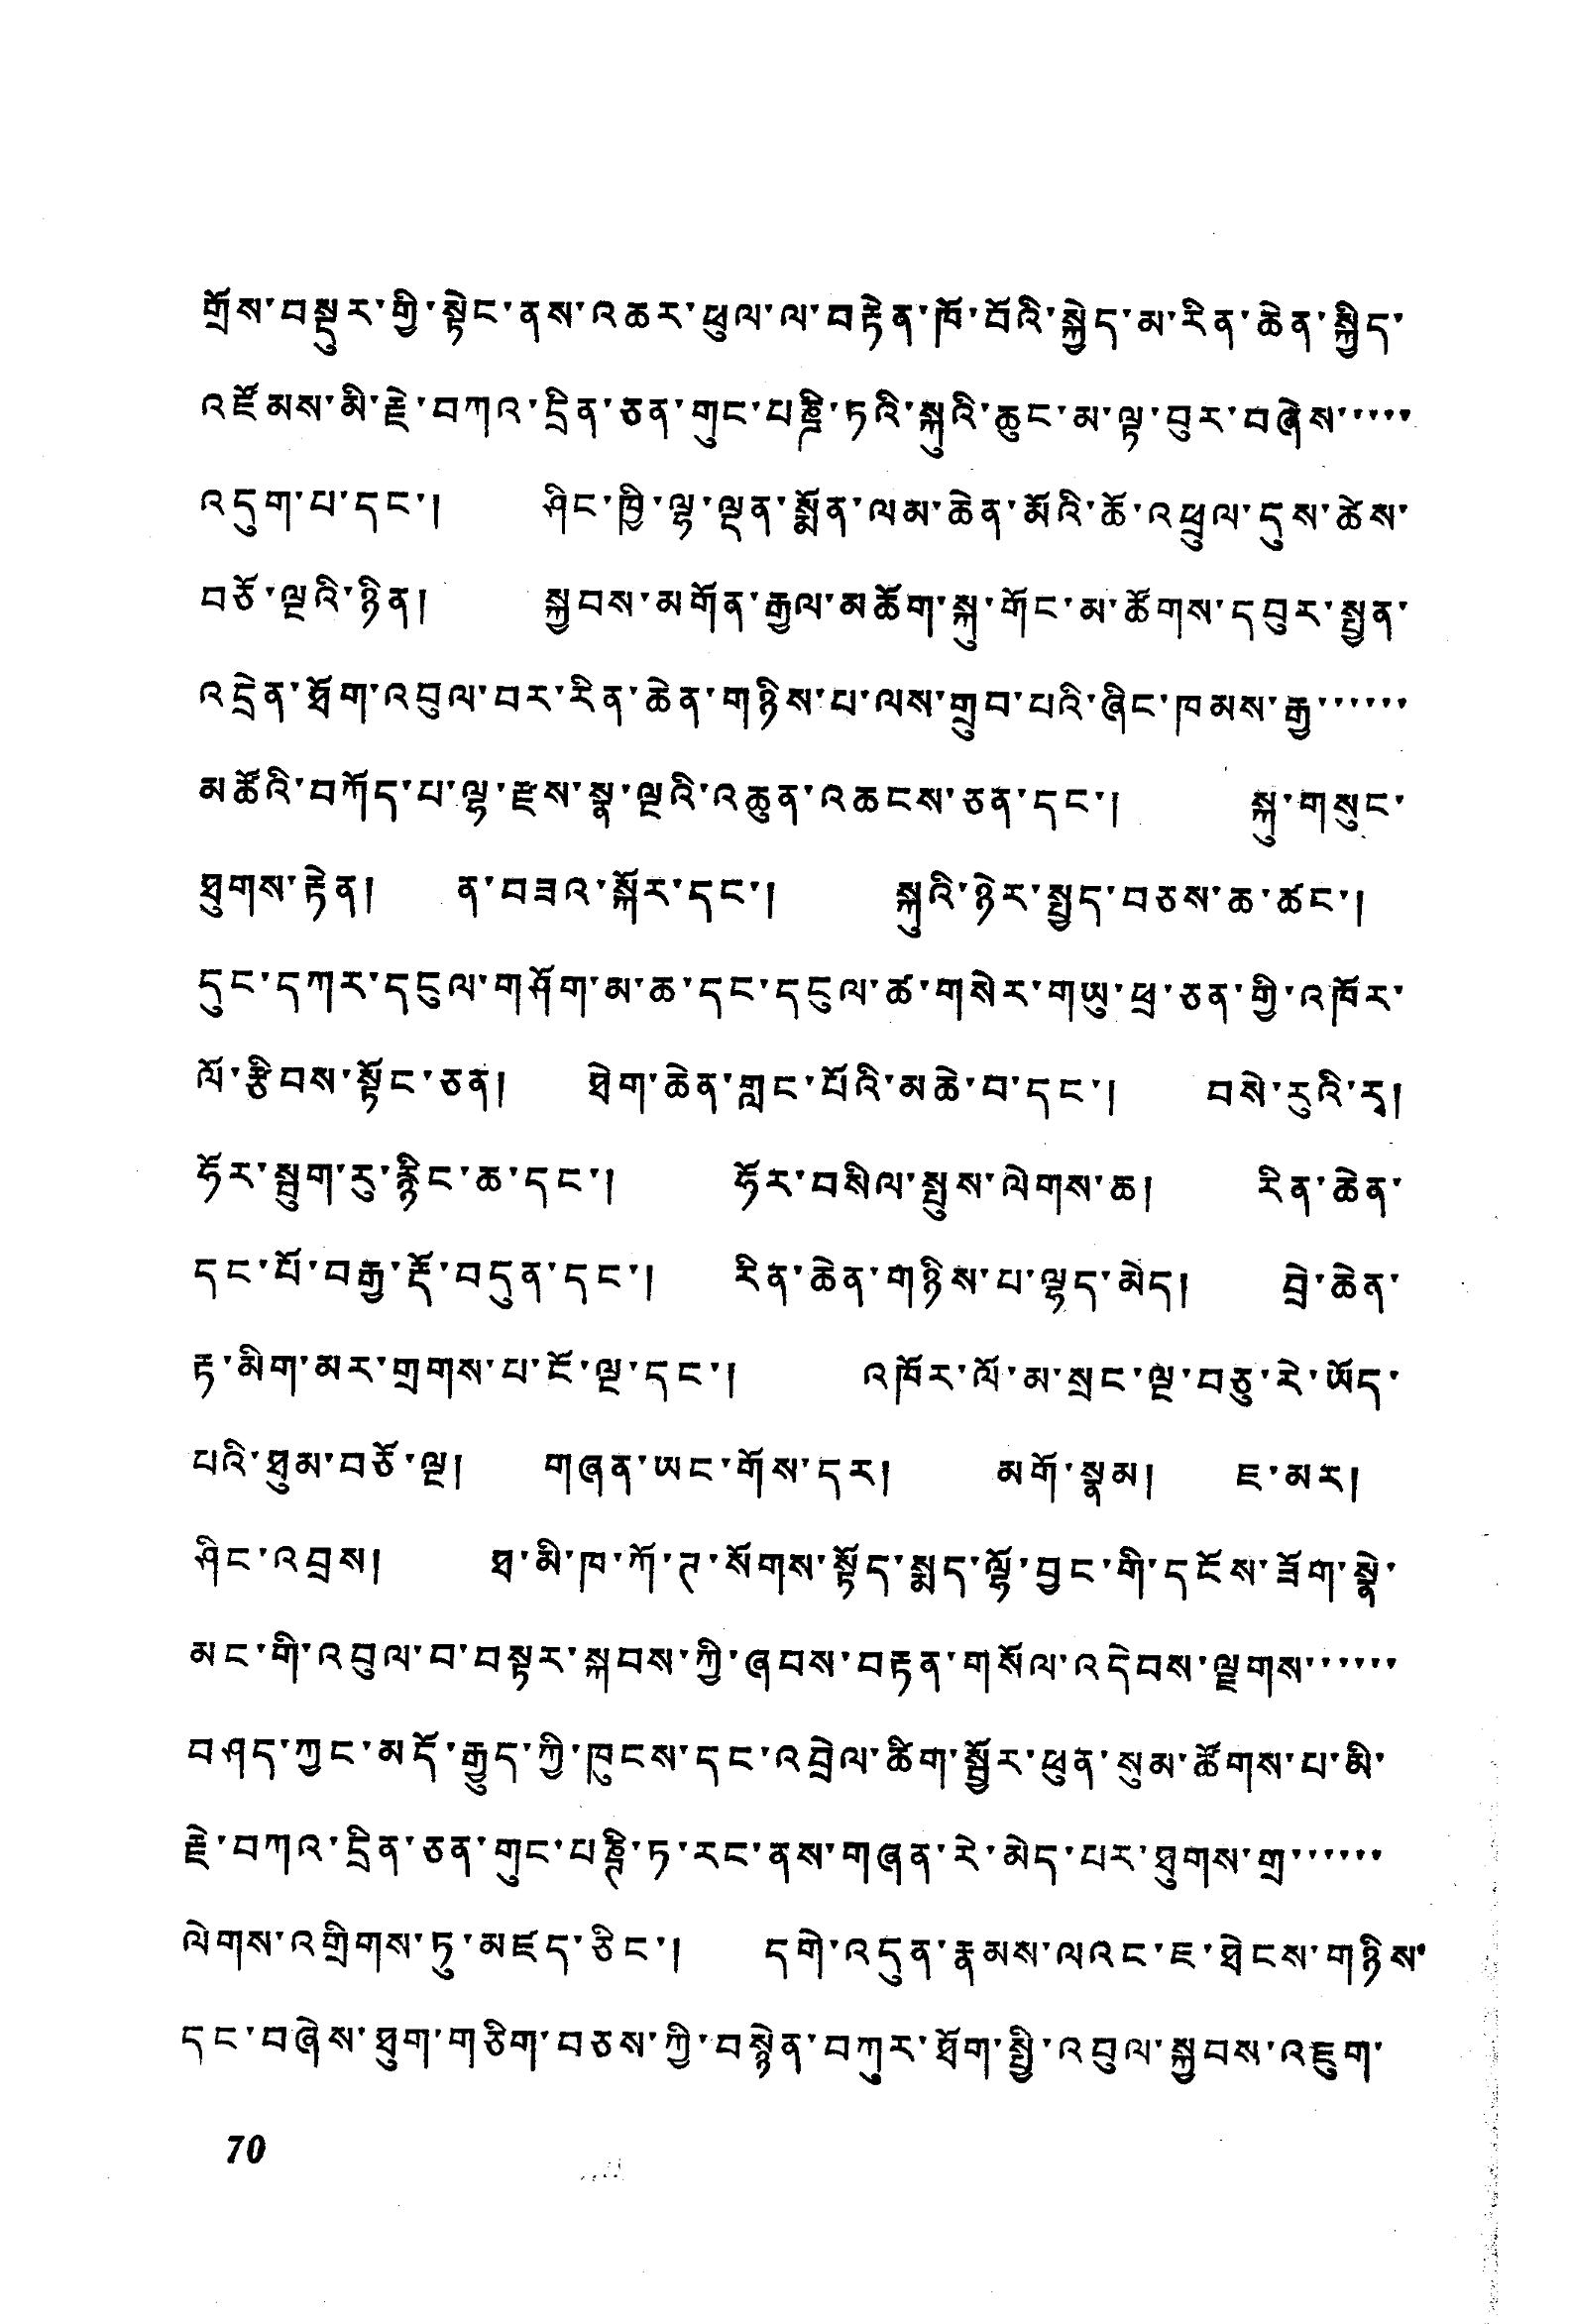གྲོས་བསྡུར་གྱི་སྟེང་ནས་འཆར་ཕུལ་ལ་བརྟེན་ཁོ་བོའི་སྐྱེད་མ་རིན་ཆེན་སྐྱིད་
འཛོམས་མི་རྗེ་བཀའ་དྲིན་ཅན་གུང་པཎྜི་ཏའི་སྐུའི་ཆུང་མ་ལྟ་བུར་བཞེས་་་་་
འདུག་པ་དང་། ཤིང་ལྷ་ལྡན་སྨོན་ལམ་ཆེན་མོའི་ཆོ་འཕྲུལ་དུས་ཚེས་
བཅོ་ལྔའི་ཉིན། སྐྱབས་མགོན་རྒྱལ་མཆོག་སྐུ་གོང་མ་ཚོགས་དབུས་སྤྱན་
འདྲེན་ཐོག་འབུལ་བར་རིན་ཆེན་གཉིས་པ་ལས་གྲུབ་པའི་ཞིང་ཁམས་རྒྱ་་་་་་
མཚོའི་བཀོད་པ་ལྷ་རྫས་སྣ་ལྔའི་འཆུན་འཆངས་ཅན་དང་། སྐུ་གསུང་
ཐུགས་རྟེན། ན་བཟའ་སྐོར་དང་། སྐུའི་ཉེར་སྤྱད་བཅས་ཆ་ཚང་།
དུང་དཀར་དངུལ་གཤོག་མ་ཆ་དང་དངུལ་ཚ་གསེར་གཡུ་ཕྲ་ཅན་གྱི་འཁོར་
ལོ་རྩིབས་སྟོང་ཅན་། ཐེག་ཆེན་གླང་པོའི་མཆེ་བ་དང་། བསེ་རུའི་རྭ།
ཧོར་སྦུག་རུ་རྙིང་ཆ་དང་། ཧོར་བསིལ་སྤུས་ལེགས་ཆ། རིན་ཆེན་
དང་པོ་བརྒྱ་རྡོ་བདུན་དང་། རིན་ཆེན་གཉིས་པ་ལྷད་མེད། བྲེ་ཆེན་
རྟ་མིག་མར་གྲགས་པ་ངོ་ལྔ་དང་། འཁོར་ལོ་མ་སྲང་ལྔ་བཅུ་རེ་ཡོད་
པའི་ཐུམ་བཅོ་ལྔ། གཞན་ཡང་གོས་དར། མགོ་སྣམ། ཇ་མར།
ཤིང་འབྲས། ཐ་མི་ཁ་ཀོ་ཊ་སོགས་སྟོད་སྨད་ལྷོ་བྱང་གི་དངོས་ཟོག་སྣེ་
མང་གི་འབུལ་བ་བསྟར་སྐབས་ཀྱི་ཞབས་བརྟན་གསོལ་འདེབས་ལྗགས་་་་་་
བཤད་ཀྱང་མདོ་རྒྱུད་ཀྱི་ཁུངས་དང་འབྲེལ་ཚིག་སྦྱོར་ཕུན་སུམ་ཚོགས་པ་མི་
རྗེ་བཀའ་དྲིན་ཅན་གུང་པཎྚི་ཏ་རང་ནས་གཞན་རེ་མེད་པར་ཐུགས་གྲ་་་་་་
ལེགས་འགྲིགས་ཏུ་མཛད་ཅིང་། དགེ་འདུན་རྣམས་ལའང་ཇ་ཐེངས་གཉིས་
དང་བཞེས་ཐུག་གཅིག་བཅས་ཀྱི་བསྙེན་བཀུར་ཐོག་སྤྱི་འབུལ་སྐྱབས་འཇུག་
70
